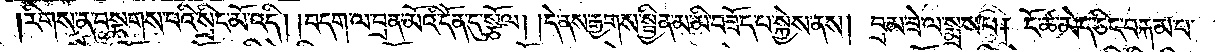རིགས་ན་བསྔགས་པའི་སྲིང་མོ་འདི། །བདག་ལ་བྲན་མོའི་དོན་དུ་སྩོལ། །དེ་ནས་རྒྱགས་སྦྱིན་མ་མི་བཟོད་པ་སྐྱེས་ནས། བྲམ་ཟེ་ལ་སྨྲས་པ། ངོ་ཚ་མེད་ཅིང་བརྐམ་པ་
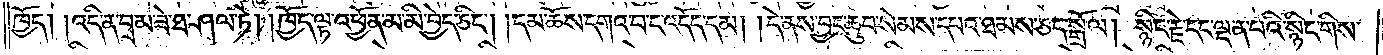ཁྱོད། །འདི་ན་བྲམ་ཟེ་ཐ་ཤལ་ཏེ། །ཁྱོད་ལྟ་འཕྱོན་མ་མི་བྱེད་ཅིང༌། །དམ་ཆོས་དགའ་བ་ང་འདོད་དམ། །དེ་ནས་བྱང་ཆུབ་སེམས་དཔའ་ཐམས་ཅད་སྒྲོལ། སྙིང་རྗེ་དང་ལྡན་པའི་སྙིང་གིས་
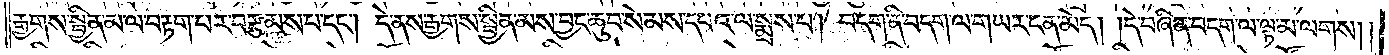རྒྱགས་སྦྱིན་མ་ལ་བརྟག་པར་བརྩམས་པ་དང༌། དེ་ནས་རྒྱགས་སྦྱིན་མས་བྱང་ཆུབ་སེམས་དཔའ་ལ་སྨྲས་པ། བདག་ནི་བདག་ལ་གཡར་ངན་མེད། །དེ་བཞིན་བདག་ལ་ལྟ་མ་ལགས། །
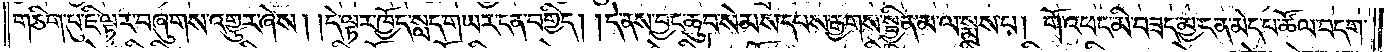གཅིག་པུ་ཇི་ལྟར་བཞུགས་འགྱུར་ཞེས། །དེ་ལྟར་ཁྱོད་སླད་གཡར་ངན་བགྱིད། །དེ་ནས་བྱང་ཆུབ་སེམས་དཔས་རྒྱགས་སྦྱིན་མ་ལ་སྨྲས་པ། གོ་འཕང་མི་བཟད་མྱ་ངན་མེད་པ་ཚོལ་བདག་
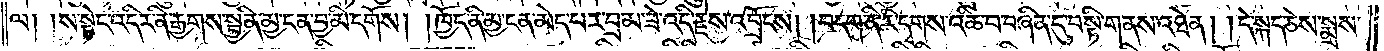ལ། །ས་སྟེང་འདིར་ནི་རྒྱགས་སྦྱིན་མྱ་ངན་བྱ་མི་དགོས། །ཁྱོད་ནི་མྱ་ངན་མེད་པར་བྲམ་ཟེ་འདི་རྗེས་འབྲོངས། །བདག་ནི་རི་དྭགས་འཆི་བ་བཞིན་དུ་བསྟི་གནས་འཐེན། །དེ་སྐད་ཅེས་སྨྲས་
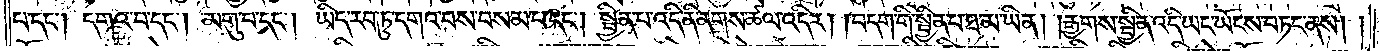པ་དང༌། དགའ་བ་དང༌། མགུ་བ་དང༌། ཡིད་རབ་ཏུ་དགའ་བས་བསམ་པ་དང༌། སྦྱིན་པ་འདི་ནི་ནགས་ཚལ་འདིར། །བདག་གི་སྦྱིན་པ་ཐ་མ་ཡིན། །རྒྱགས་སྦྱིན་འདི་ཡང་ཡོངས་བཏང་ནས། །
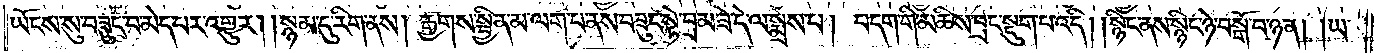ཡོངས་སུ་བཟུང་བ་མེད་པར་འགྱུར། །སྙམ་དུ་རིག་ནས། རྒྱགས་སྦྱིན་མ་ལག་པ་ནས་བཟུང་སྟེ་བྲམ་ཟེ་དེ་ལ་སྨྲས་པ། བདག་གི་མཆིས་བྲང་སྡུག་པ་འདི། །སྙིང་ནས་སྙིང་ཉེ་བསྒོ་བ་ཉན། །ཡ་
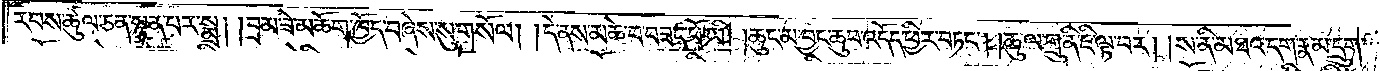རབས་ཚུལ་ཅན་སྙན་པར་སྨྲ། །བྲམ་ཟེ་མཆོག་ཁྱོད་བཞེས་སུ་གསོལ། །དེ་ནས་མཆེ་བ་བཟང་པོ་ཡི། །ཆུང་མ་བྱང་ཆུབ་འདོད་ཕྱིར་བཏང༌། །ཆུ་ལ་གྲུ་ནི་ཇི་ལྟ་བར། །ས་ནི་མཐའ་དག་རྣམ་དྲུག་
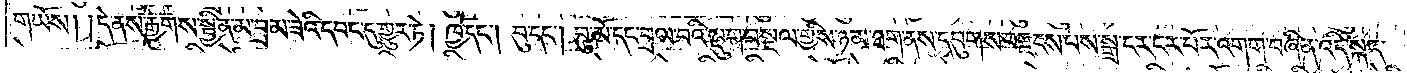གཡོས། །དེ་ནས་རྒྱགས་སྦྱིན་མ་བྲམ་ཟེའི་དབང་དུ་གྱུར་ཏེ། ཁྱོད་དང༌། བུ་དང༌། བུ་མོ་དང་བྲལ་བའི་སྡུག་བསྔལ་གྱིས་ཉམ་ཐག་ནས་དབུགས་བརྫངས་པས་སྒྲ་ངར་ངར་པོར་འགག་བཞིན་འདི་སྐད་
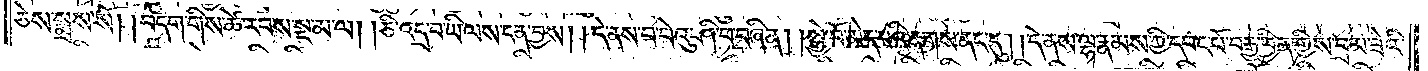ཅེས་སྨྲས་སོ། །བདག་གིས་ཚེ་རབས་སྔ་མ་ལ། །ཅི་འདྲ་བ་ཡི་ལས་ངན་བྱས། །དེ་ནས་བ་བེའུ་ཤི་བ་བཞིན། །སྐྱེ་བོ་མེད་པའི་ནགས་ནང་དུ། །དེ་ནས་ལྷ་རྣམས་ཀྱི་དབང་པོ་བརྒྱ་བྱིན་གྱིས་བྲམ་ཟེའི་
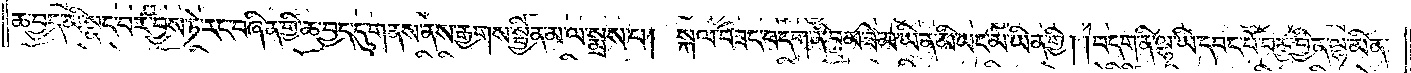ཆ་བྱད་མི་སྣང་བར་བྱས་ཏེ་རང་བཞིན་གྱི་ཆ་བྱད་དུ་གནས་ནས་རྒྱགས་སྦྱིན་མ་ལ་སྨྲས་པ། སྐལ་བཟང་བདག་ནི་བྲམ་ཟེ་མ་ཡིན་མི་ཡང་མ་ཡིན་གྱི། །བདག་ནི་ལྷ་ཡི་དབང་པོ་བརྒྱ་བྱིན་ལྷ་མིན་
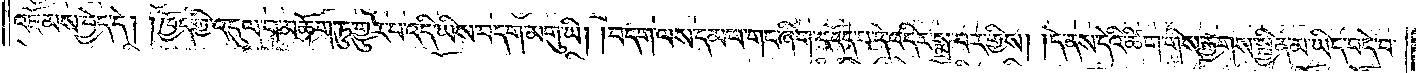འཇོམས་བྱེད་དེ། །ཁྱོད་ཀྱི་འདུལ་བ་མཆོག་ཏུ་གྱུར་པ་འདི་ཡིས་བདག་མགུ་ཡི། །བདག་ལས་དམ་པ་གང་ཞིག་འདོད་པ་དེ་འདིར་སྨྲ་བར་གྱིས། །དེ་ནས་དེའི་ཚིག་གིས་རྒྱགས་སྦྱིན་མ་ཡིད་བདེ་བ་
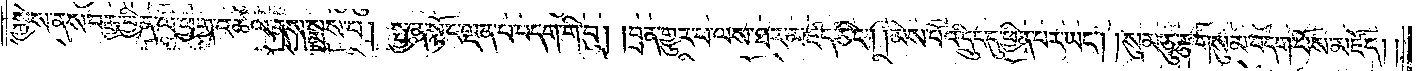སྐྱེས་ནས་བརྒྱ་བྱིན་ལ་ཕྱག་འཚལ་ནས་སྨྲས་པ། སྤྱན་སྟོང་ལྡན་པ་བདག་གི་བུ། །བྲན་གྱུར་པ་ལས་ཐར་མཛད་ཅིང༌། །མེས་པོའི་དྲུང་དུ་ཕྱིན་པར་ཡང༌། །སུམ་ཅུ་རྩ་གསུམ་བདག་པོས་མཛོད། །
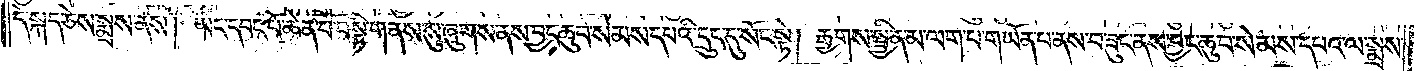དེ་སྐད་ཅེས་སྨྲས་ནས། ཡང་དབང་པོ་ཆེན་པོ་བསྟི་གནས་སུ་ཞུགས་ནས་བྱང་ཆུབ་སེམས་དཔའི་དྲུང་དུ་སོང་སྟེ། རྒྱགས་སྦྱིན་མ་ལག་པ་གཡོན་པ་ནས་བ་ཟུང་ནས་བྱང་ཆུབ་སེམས་དཔའ་ལ་སྨྲས་
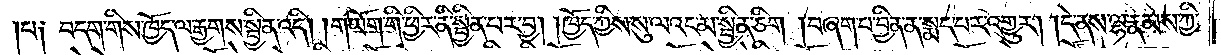།པ༑ བདག་གིས་ཁྱོད་ལ་རྒྱགས་སྦྱིན་འདི། །གཡོག་གི་ཕྱིར་ནི་སྦྱིན་པར་བྱ། །ཁྱོད་ཀྱིས་སུ་ལའང་མ་སྦྱིན་ཅིག །བཞག་པ་བྱིན་ན་སྨད་པར་འགྱུར། །དེ་ནས་ལྷ་རྣམས་ཀྱི་
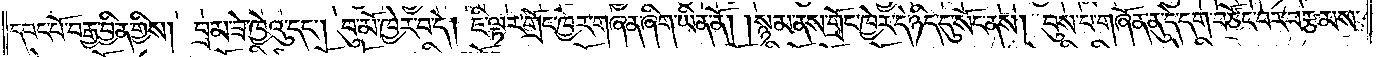དབང་པོ་བརྒྱ་བྱིན་གྱིས། བྲམ་ཟེ་ཁྱེའུ་དང༌། བུ་མོ་ཁྱེར་བ་དེ། ཇི་ལྟར་གྲོང་ཁྱེར་གཞན་ཞིག་ཡིན་ནོ། །སྙམ་ནས་གྲོང་ཁྱེར་དེ་ཉིད་དུ་སོང་ནས། བུས་པ་གཞོན་ནུ་དེ་དག་བཙོང་བར་བརྩམས་
